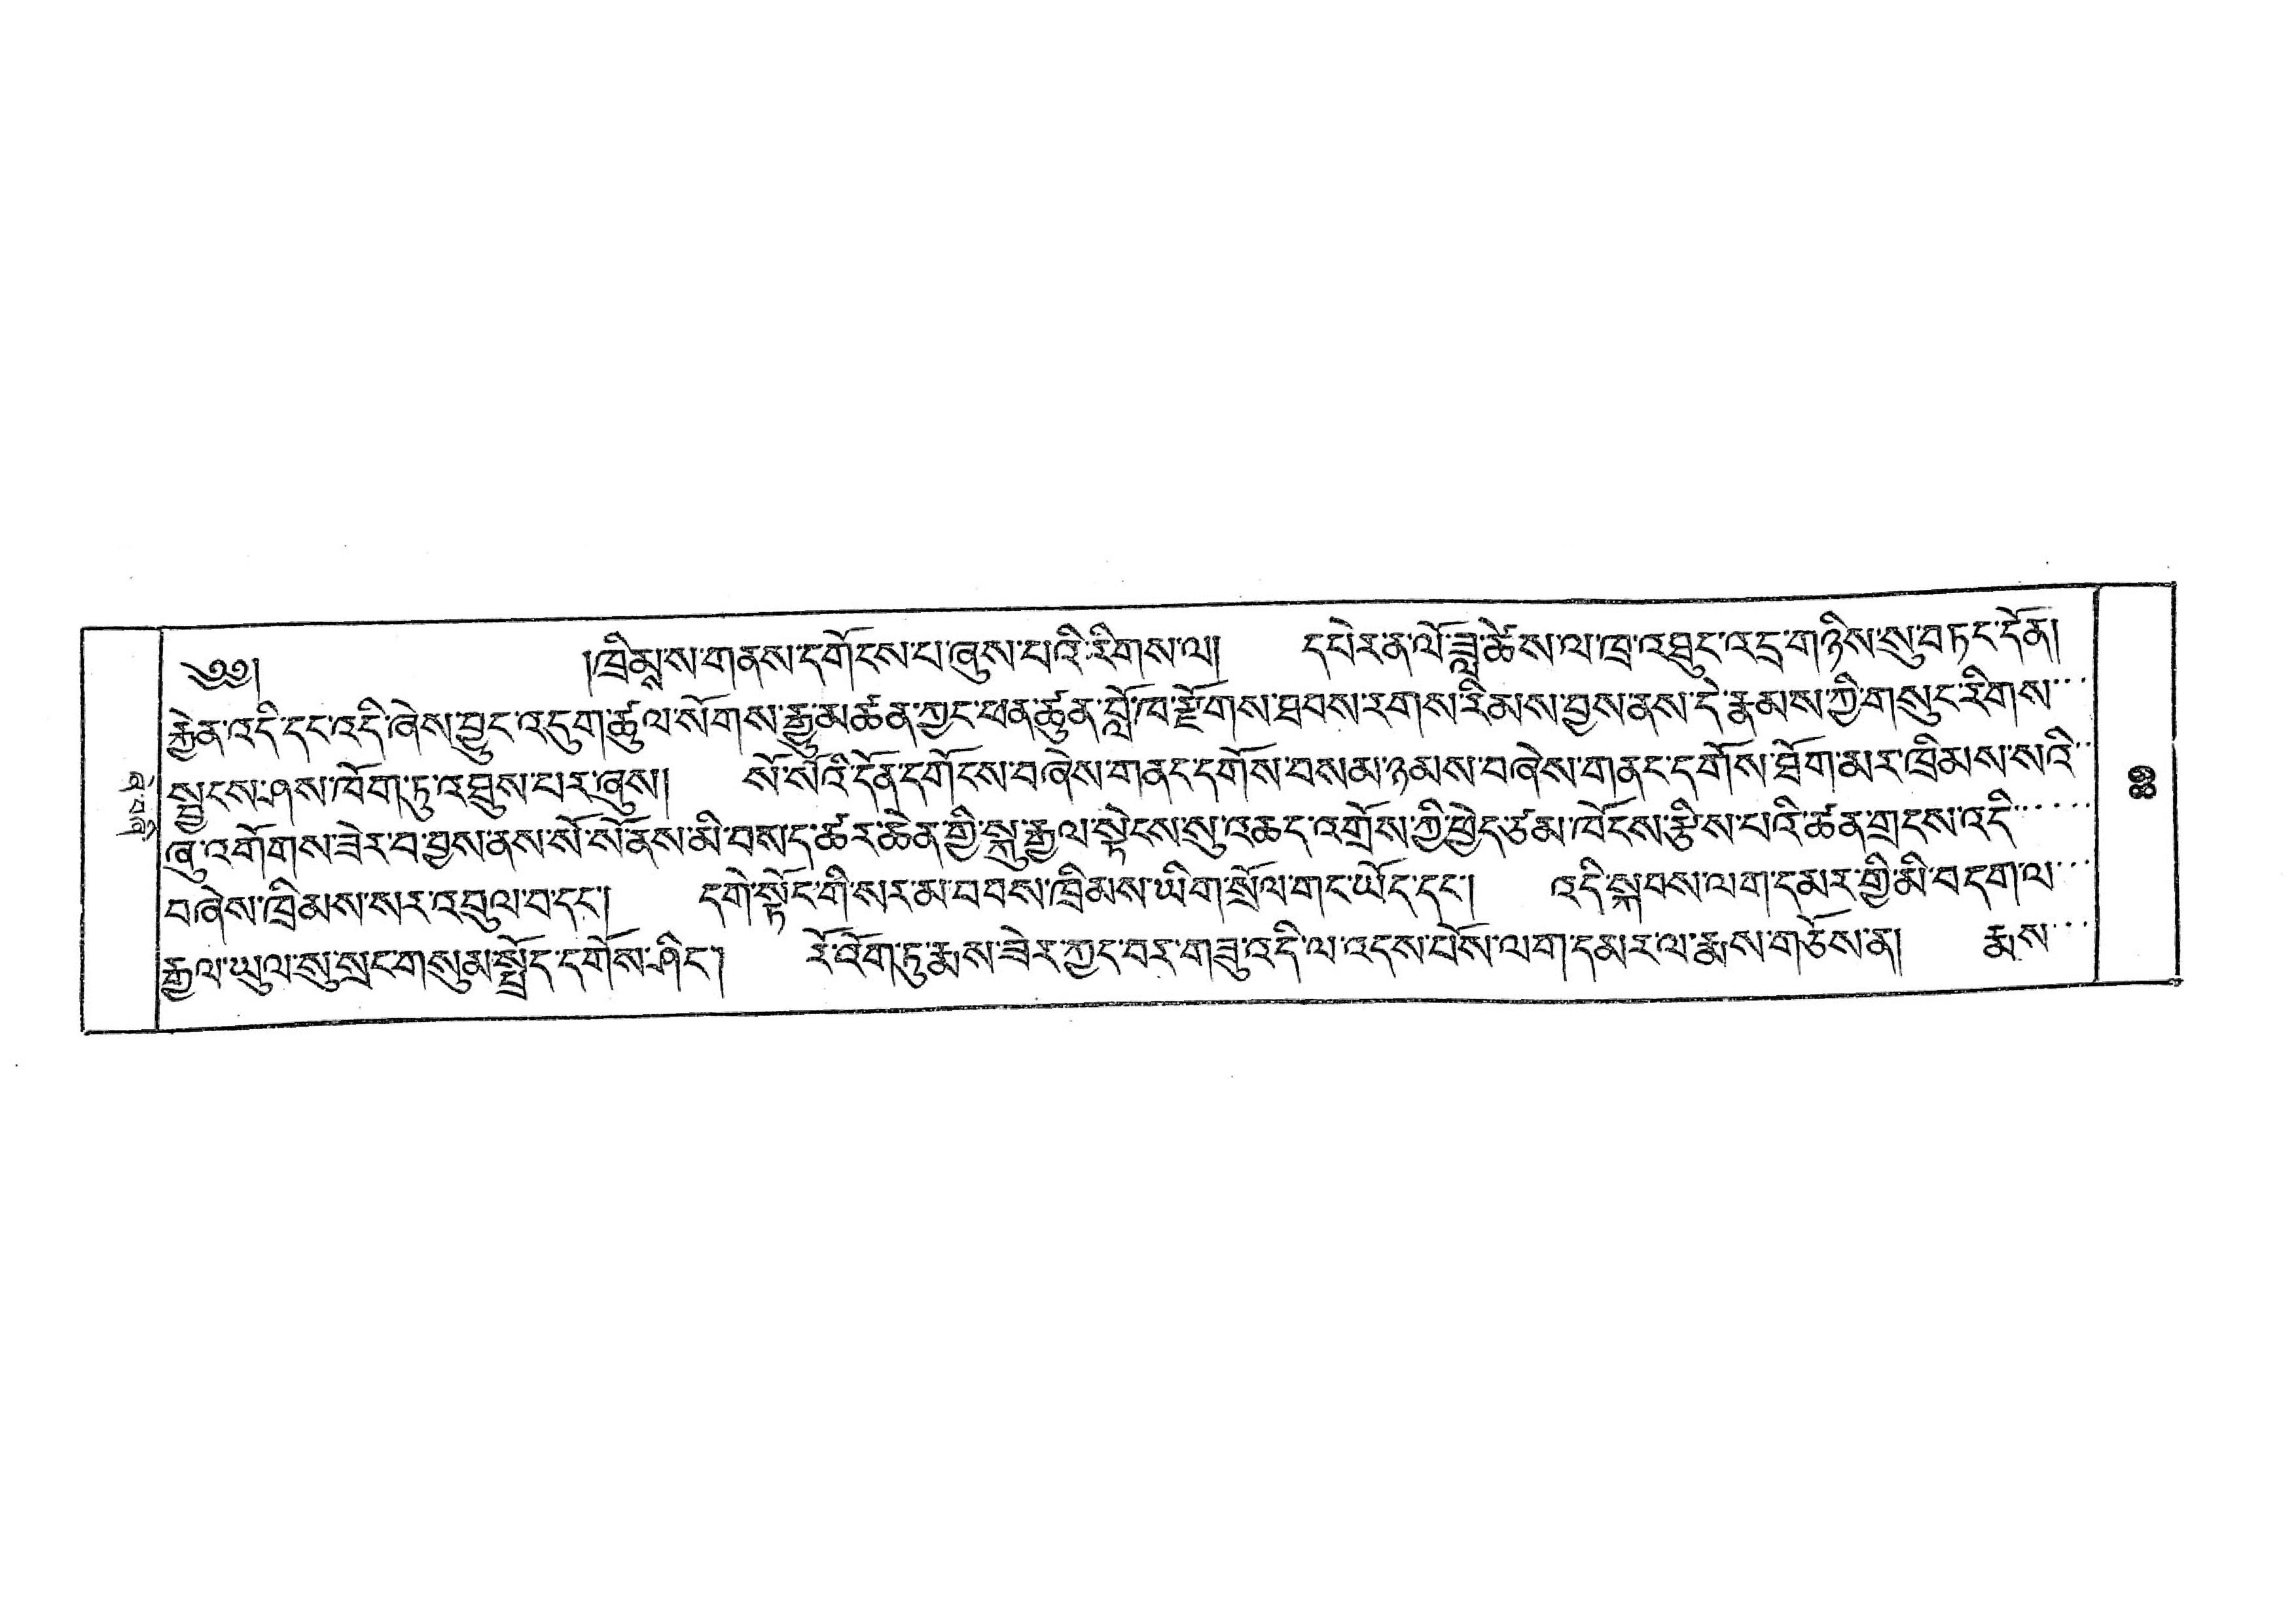ཞེ་བཞི་
༄༅།  །ཁྲིམས་ས་གནས་དགོནས་པ་ཞུས་པའི་རིགས་ལ། དཔེར་ན་ལོ་ཟླ་ཚེས་ལ་ཁྲ་འཐུང་འདྲ་གཉིས་སུ་བཏང་དོན།
རྐྱེན་འདི་དང་འདི་ཞེས་བྱུང་འདུག་ཚུལ་སོགས་རྒྱུ་མཚན་ཀྱང་ཕན་ཚུན་བློ་ཁ་རྫོགས་ཐབས་རགས་རིམས་བྱས་ནས་དེ་རྣམས་ཀྱི་གསུང་རིགས་་་
སྦྱངས་ཤས་ཁོག་ཏུ་འཐུས་པར་ཞུས། སོ་སོའི་དོན་དགོངས་བཞེས་གནང་དགོས་བསམ་ཉམས་བཞེས་གནང་དགོས་ཐོག་མར་ཁྲིམས་སའི་་
ཞུ་འགོགས་ཟེར་བ་བྱས་ནས་སོ་སོ་ནས་མི་བསད་ཚར་ཆེན་གྱི་སྐུ་རྒྱལ་སྟེངས་སུ་འཆད་འགྲོས་ཀྱི་ཕྱེད་ཙམ་ཁོངས་རྩིས་པའི་ཚན་གྲངས་འདི་་་་་
བཞེས་ཁྲིམས་སར་འབུལ་བ་དང་། དགེ་སྟོང་གི་སར་མ་བབས་ཁྲིམས་ཡིག་སྲོལ་གང་ཡོད་དང་། འདི་སྐབས་ལག་དམར་གྱི་མི་བདག་ལ་་་
རྒྱལ་ཡུལ་སུ་སྲང་གསུམ་སྤྲོད་དགོས་ཤིང་། རོ་འོག་ཏུ་རྨས་ཟེར་ཀྱང་བར་གཟུ་འདི་ལ་འདས་པོས་ལག་དམར་ལ་རྨས་གཅོས་ན། རྨས་་་
